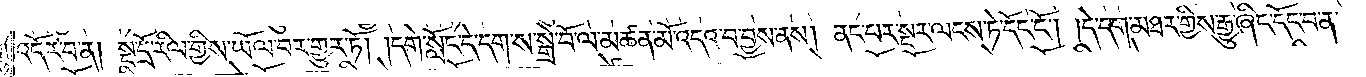འདོར་བ་ན། སྔ་དྲོ་རིལ་གྱིས་ཡོལ་བར་གྱུར་ཏོ། །དགེ་སློང་དེ་དག་ས་སྒྲེ་བོ་ལ་མཚན་མོ་འདའ་བ་བྱས་ནས། ནང་པར་སྔར་ལངས་ཏེ་དོང་ངོ༌། །དེ་དག་མཐར་གྱིས་རྒྱུ་ཞིང་དོང་བ་ན་
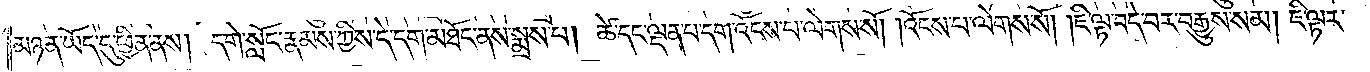མཉན་ཡོད་དུ་ཕྱིན་ནས། དགེ་སློང་རྣམས་ཀྱིས་དེ་དག་མཐོང་ནས་སྨྲས་པ། ཚེ་དང་ལྡན་པ་དག་འོངས་པ་ལེགས་སོ། །འོངས་པ་ལེགས་སོ། །ཇི་ལྟ་བདེ་བར་བརྒྱུས་སམ། ཇི་ལྟར་
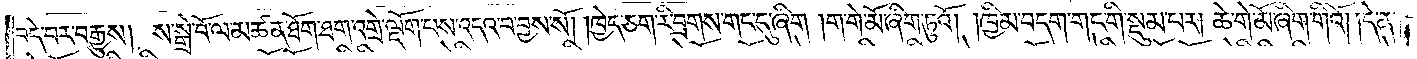བདེ་བར་བརྒྱུས། ས་སྒྲེ་བོ་ལ་མཚན་ཐོག་ཐག་འགྲེ་ལྡོག་པས་འདའ་བ་བྱས་སོ། །ཁྱེད་ཅག་རི་བྲགས་གང་དུ་ཞིག །ག་གེ་མོ་ཞིག་ཏུའོ། །ཁྱིམ་བདག་གང་གི་སྡུམ་པར། ཆེ་གེ་མོ་ཞིག་གིའོ། །དེ་ན་
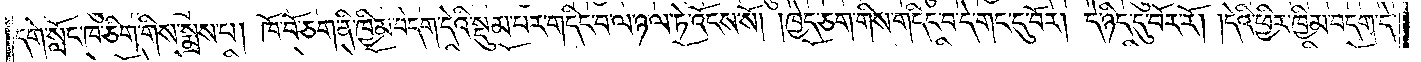དགེ་སློང་ཁ་ཅིག་གིས་སྨྲས་པ། ཁོ་བོ་ཅག་ནི་ཁྱིམ་བདག་དེའི་སྡུམ་པར་གདིང་བ་ལ་ཉལ་ཏེ་འོངས་སོ། །ཁྱེད་ཅག་གིས་གདིང་བ་དེ་གང་དུ་བོར། དེ་ཉིད་དུ་བོར་རོ། །དེའི་ཕྱིར་ཁྱིམ་བདག་དེ་
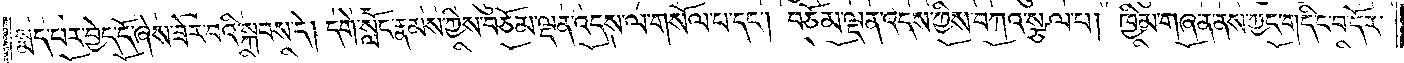སྨད་པར་བྱེད་དོ་ཞེས་ཟེར་བའི་སྐབས་དེ། དགེ་སློང་རྣམས་ཀྱིས་བཅོམ་ལྡན་འདས་ལ་གསོལ་པ་དང༌། བཅོམ་ལྡན་འདས་ཀྱིས་བཀའ་སྩལ་པ། ཁྱིམ་གཞན་ནས་ཀྱང་གདིང་བ་དོར་
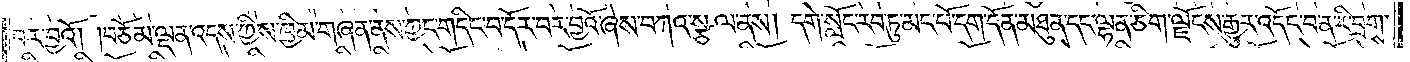བར་བྱའོ། །བཅོམ་ལྡན་འདས་ཀྱིས་ཁྱིམ་གཞན་ནས་ཀྱང་གདིང་བ་དོར་བར་བྱའོ་ཞེས་བཀའ་སྩལ་ནས། དགེ་སློང་རབ་ཏུ་མང་པོ་དག་དོན་མཐུན་དང་ལྷན་ཅིག་ལྗོངས་རྒྱུར་འདོང་བ་ན་རི་བྲགས་
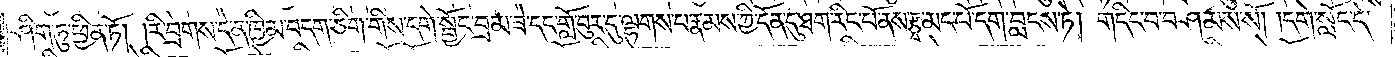ཤིག་ཏུ་ཕྱིན་ཏོ། །རི་བྲགས་དེ་ན་ཁྱིམ་བདག་ཅིག་གིས་དགེ་སྦྱོང་བྲམ་ཟེ་དང་གློ་བུར་དུ་ལྷགས་པ་རྣམས་ཀྱི་དོན་དུ་ཐག་རིང་པོ་ནས་རྩྭ་མང་པོ་དག་བླངས་ཏེ། གདིང་བ་བཤམས་སོ། །དགེ་སློང་དེ་
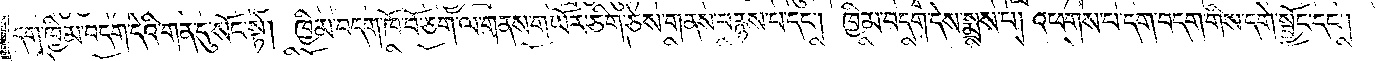དག་ཁྱིམ་བདག་དེའི་གན་དུ་སོང་སྟེ། ཁྱིམ་བདག་ཁོ་བོ་ཅག་ལ་གནས་གཡོར་ཅིག་ཅེས་གནས་བརྙས་པ་དང༌། ཁྱིམ་བདག་དེས་སྨྲས་པ། འཕགས་པ་དག་བདག་གིས་དགེ་སྦྱོང་དང༌།
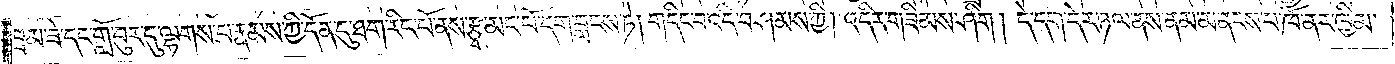བྲམ་ཟེ་དང་གློ་བུར་དུ་ལྷགས་པ་རྣམས་ཀྱི་དོན་དུ་ཐག་རིང་པོ་ནས་རྩྭ་མང་པོ་དག་བླངས་ཏེ། གདིང་བ་འདི་བཤམས་ཀྱི། འདིར་གཟིམས་ཤིག། དེ་དག་དེར་ཉལ་ནས་ནམ་མ་ནངས་པ་ཁོ་ནར་ཁྱིམ་
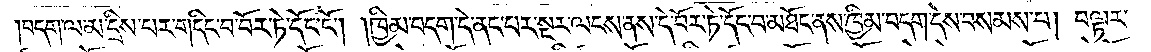བདག་ལ་མ་དྲིས་པར་གདིང་བ་བོར་ཏེ་དོང་ངོ༌། །ཁྱིམ་བདག་དེ་ནང་པར་སྔར་ལངས་ནས་དེ་བོར་ཏེ་དོང་བ་མཐོང་ནས་ཁྱིམ་བདག་དེས་བསམས་པ། བལྟར་
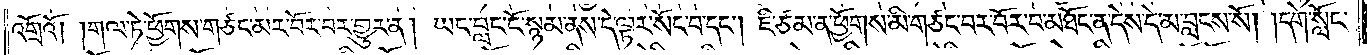འགྲོའོ། །གལ་ཏེ་ཕྱོགས་གཙང་མར་བོར་བར་གྱུར་ན། ཡང་བླང་ངོ་སྙམ་ནས་དེ་ལྟར་སོང་བ་དང༌། ཇི་ཙམ་ན་ཕྱོགས་མི་གཙང་བར་བོར་བ་མཐོང་ན་དེས་དེ་མ་བླངས་སོ། །དགེ་སློང་
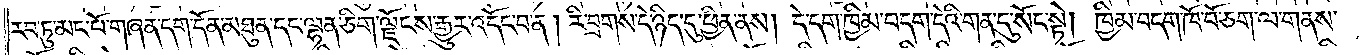རབ་ཏུ་མང་པོ་གཞན་དག་དོན་མཐུན་དང་ལྷན་ཅིག་ལྗོངས་རྒྱུར་འདོང་བ་ན། རི་བྲགས་དེ་ཉིད་དུ་ཕྱིན་ནས། དེ་དག་ཁྱིམ་བདག་དེའི་གན་དུ་སོང་སྟེ། ཁྱིམ་བདག་ཁོ་བོ་ཅག་ལ་གནས་
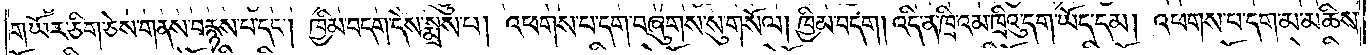གཡོར་ཅིག་ཅེས་གནས་བརྙས་པ་དང༌། ཁྱིམ་བདག་དེས་སྨྲས་པ། འཕགས་པ་དག་བཞུགས་སུ་གསོལ། ཁྱིམ་བདག། འདི་ན་ཁྲིའམ་ཁྲིའུ་དག་ཡོད་དམ། འཕགས་པ་དག་མ་མཆིས་
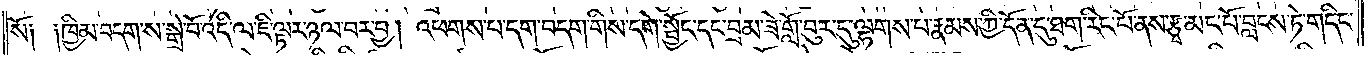སོ༑ ༑ཁྱིམ་བདག་ས་སྒྲེ་བོ་འདི་ལ་ཇི་ལྟར་ཉལ་བར་བྱ། འཕགས་པ་དག་བདག་གིས་དགེ་སྦྱོང་དང་བྲམ་ཟེ་གློ་བུར་དུ་ལྷགས་པ་རྣམས་ཀྱི་དོན་དུ་ཐག་རིང་པོ་ནས་རྩྭ་མང་པོ་བླངས་ཏེ་གདིང་
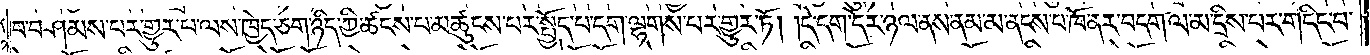བ་བཤམས་པར་གྱུར་པ་ལས་ཁྱེད་ཅག་ཉིད་ཀྱི་ཚངས་པ་མཚུངས་པར་སྤྱོད་པ་དག་ལྷགས་པར་གྱུར་ཏོ། །དེ་དག་དེར་ཉལ་ནས་ནམ་མ་ནངས་པ་ཁོ་ནར་བདག་ལ་མ་དྲིས་པར་གདིང་བ་
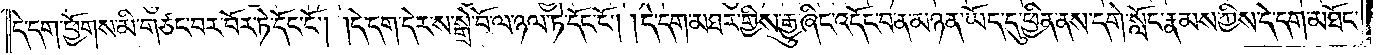དེ་དག་ཕྱོགས་མི་གཙང་བར་བོར་ཏེ་དོང་ངོ༌། །དེ་དག་དེར་ས་སྒྲེ་བོ་ལ་ཉལ་ཏེ་དོང་ངོ༌། །དེ་དག་མཐར་གྱིས་རྒྱུ་ཞིང་འདོང་བ་ན་མཉན་ཡོད་དུ་ཕྱིན་ནས་དགེ་སློང་རྣམས་ཀྱིས་དེ་དག་མཐོང་
